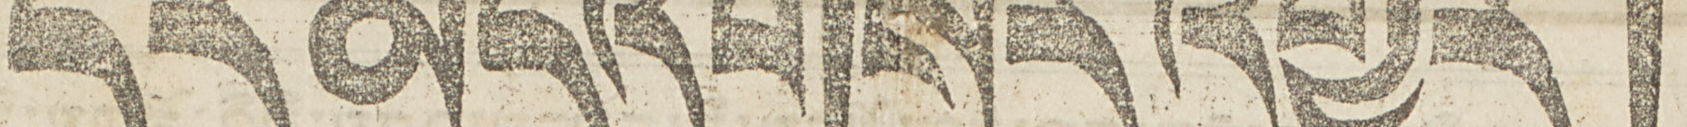དར་མདོའི་གསར་འགྱུར།
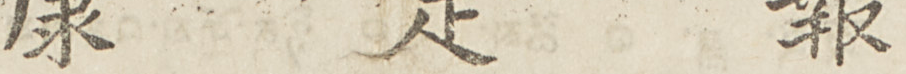康 定 報
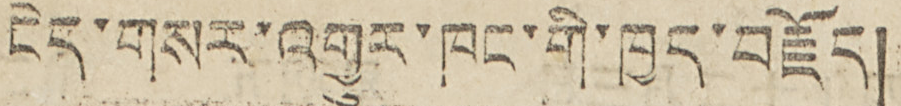ངེད་གསར་འགྱུར་ཁང་གི་ཁྱད་བརྗོད།
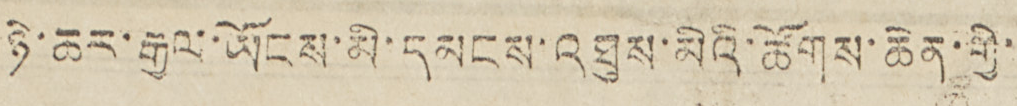ཉི་ཆར་རྒྱལ་ཡོངས་མི་དམངས་འཐུས་མིའི་ཚོགས་ཆེན་གྱི་
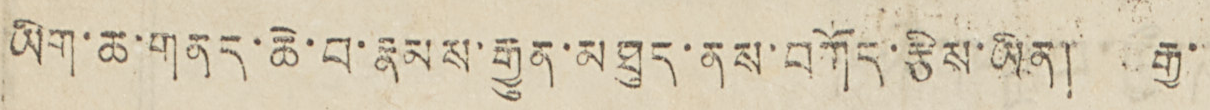ཡིག་ཆ་གནད་ཆེ་བ་རྣམས་རྒྱུན་མཐུད་ནས་བཀོད་རྩིས་ཡིན། རྒྱ་
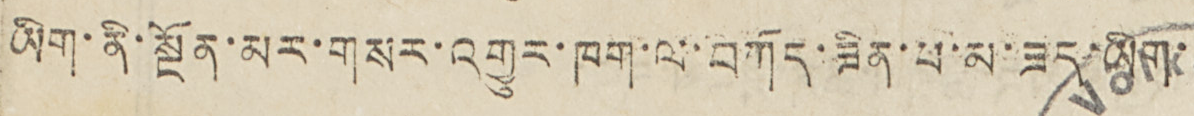ཡིག་ནི་སྔོན་མར་གསར་འགྱུར་ཁག་ལ་བཀོད་ཟིན་པ་མ་ཟད་ཡིག་
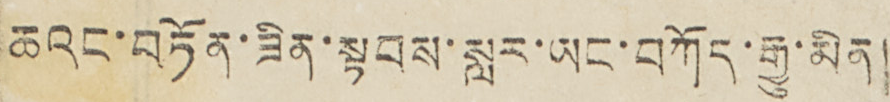ཆའང་བཏོན་ཟིན་སྟབས་སླར་ཡང་བཀོད་རྒྱུ་མིན།
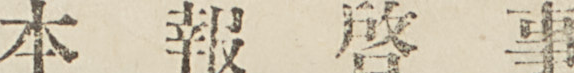本 報 啓 事
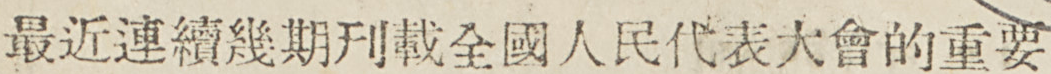最近連續幾期刊載全國人民代表大會的重要
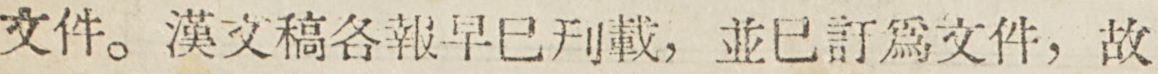文件。漢文稿各報早已刊載，並已訂爲文件，故
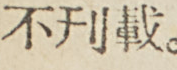不刊載。
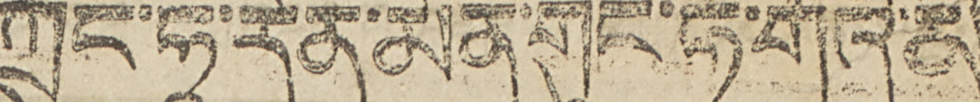ཀྲུང་ཧཱ་རེན་མེན་གུང་ཧོ་གོའི་མི་
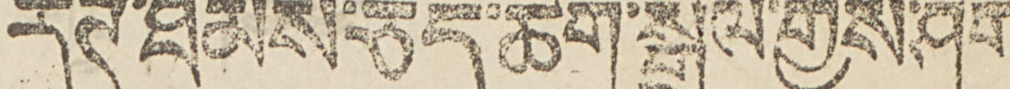རིཊ་ཐམས་ཅད་ཆིག་སྒྲིལ་གྱིས་ཤིག
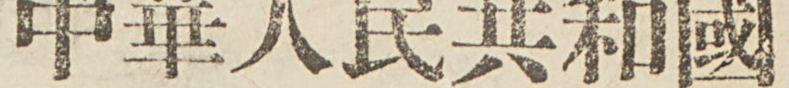中華人民共和國
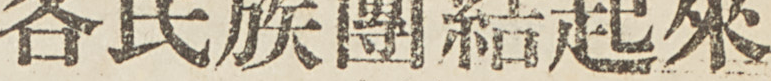各民族團結起來
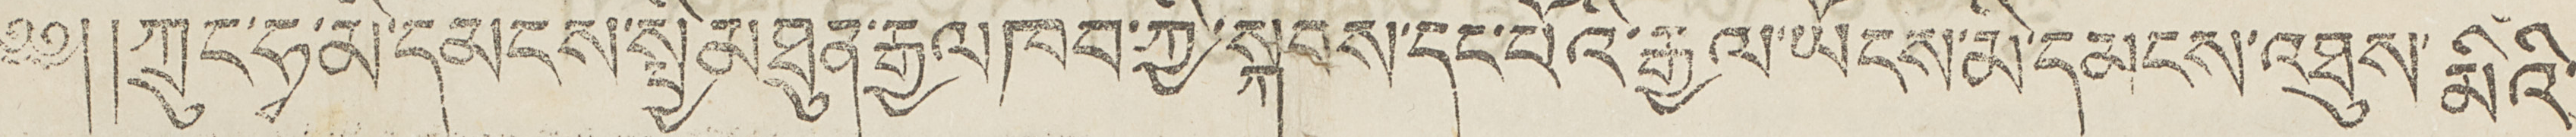༄༅། །ཀྲུང་ཧྭ་མི་དམངས་སྤྱི་མཐུན་རྒྱལ ཁབ་ཀྱི་སྐབས་དང་པོའི་རྒྱལ་ཡོངས་མི་དམངས་འཐུས་མིའི་
